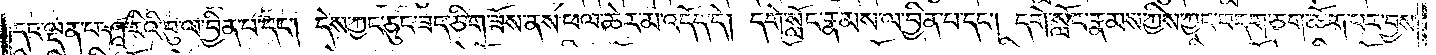དང་ལྡན་པ་ཤཱ་རིའི་བུ་ལ་བྱིན་པ་དང༌། དེས་ཀྱང་ཅུང་ཟད་ཅིག་ཟོས་ནས་ཕལ་ཆེར་མ་འདོད་དེ། དགེ་སློང་རྣམས་ལ་བྱིན་པ་དང༌། དགེ་སློང་རྣམས་ཀྱིས་ཀྱང་བདག་ཅག་ཆོག་པར་བྱས་
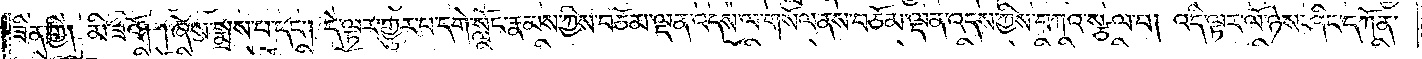ཟིན་གྱི། མི་ཟའོ། །ཞེས་སྨྲས་པ་དང༌། དེ་ལྟར་གྱུར་པ་དགེ་སློང་རྣམས་ཀྱིས་བཅོམ་ལྡན་འདས་ལ་གསོལ་ནས་བཅོམ་ལྡན་འདས་ཀྱིས་བཀའ་སྩལ་པ། འདི་ལྟར་ལོ་ཉེས་ཤིང་དཀོན་
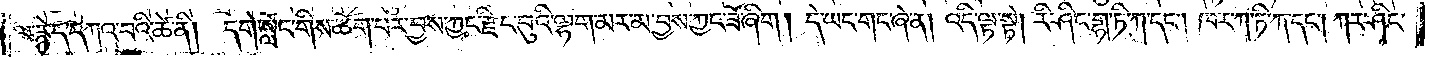ལ་རྙེད་དཀའ་བའི་ཚེ་ནི། དགེ་སློང་གིས་ཆོག་པར་བྱས་ཀྱང་རྫིང་བུའི་ལྷག་མར་མ་བྱས་ཀྱང་ཟོ་ཞིག །དེ་ཡང་གང་ཞེ་ན། འདི་ལྟ་སྟེ། རི་ཤིང་གྷ་ཏི་ཀ་དང༌། ཁར་ཀ་ཏི་ཀ་དང༌། ཀར་ཤིང་
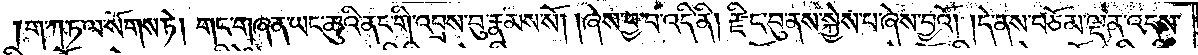ག་ཀ་ཏ་ལ་སོགས་ཏེ། གང་གཞན་ཡང་ཆུའི་ནང་གི་འབྲས་བུ་རྣམས་སོ། །ཞེས་བྱ་བ་འདི་ནི། རྫིང་བུ་ནས་སྐྱེས་པ་ཞེས་བྱའོ། །དེ་ནས་བཅོམ་ལྡན་འདས་
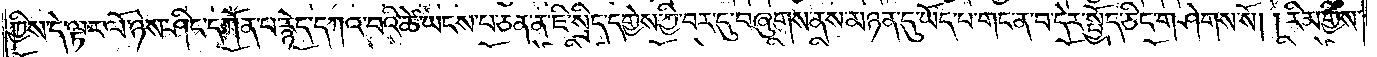ཀྱིས་དེ་ལྟར་ལོ་ཉེས་ཤིང་དཀོན་པ་རྙེད་དཀའ་བའི་ཚེ་ཡངས་པ་ཅན་ན་ཇི་སྲིད་དགྱེས་ཀྱི་བར་དུ་བཞུགས་ནས་མཉན་དུ་ཡོད་པ་གང་ན་བ་དེར་སྤྱོད་ཅིང་གཤེགས་སོ། །རིམ་གྱིས་
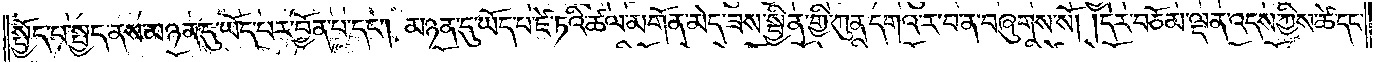སྤྱོད་པ་སྤྱད་ནས་མཉན་དུ་ཡོད་པར་བྱོན་པ་དང༌། མཉན་དུ་ཡོད་པ་ཛེ་ཏའི་ཚལ་མགོན་མེད་ཟས་སྦྱིན་གྱི་ཀུན་དགའ་ར་བ་ན་བཞུགས་སོ། །དེར་བཅོམ་ལྡན་འདས་ཀྱིས་ཚེ་དང་
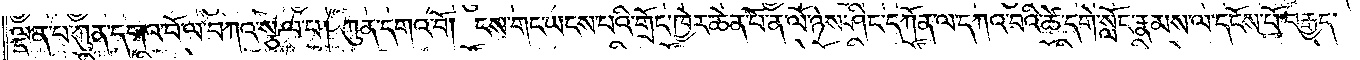ལྡན་པ་ཀུན་དགའ་བོ་ལ་བཀའ་སྩལ་པ། ཀུན་དགའ་བོ། ངས་གང་ཡངས་པའི་གྲོང་ཁྱེར་ཆེན་པོ་ན་ལོ་ཉེས་ཤིང་དཀོན་ལ་དཀའ་བའི་ཚེ་དགེ་སློང་རྣམས་ལ་དངོས་པོ་བརྒྱད་
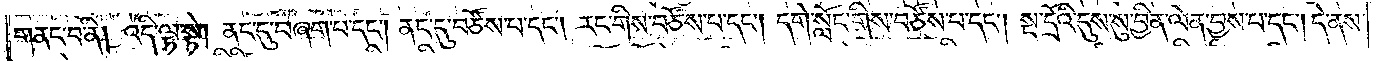གནང་བ་ནི། འདི་ལྟ་སྟེ། ནང་དུ་བཞག་པ་དང༌། ནང་དུ་བཙོས་པ་དང༌། རང་གིས་བཙོས་པ་དང༌། དགེ་སློང་གིས་བཙོས་པ་དང༌། སྔ་དྲོའི་དུས་སུ་བྱིན་ལེན་བྱས་པ་དང༌། དེ་ནས་
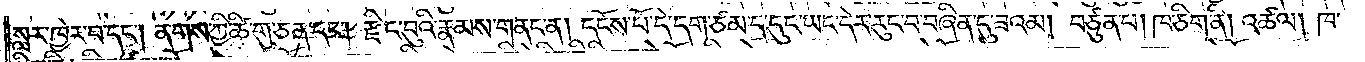སླར་ཁྱེར་བ་དང༌། ནགས་ཀྱི་ཚི་གུ་ཅན་དང༌། རྫིང་བུའི་རྣམས་གནང་ན། དངོས་པོ་དེ་དག་ཙམ་ད་དུང་ཡང་དེར་རུང་བ་བཞིན་དུ་ཟའམ། བཙུན་པ། ཁ་ཅིག་ནི། འཚལ། ཁ་
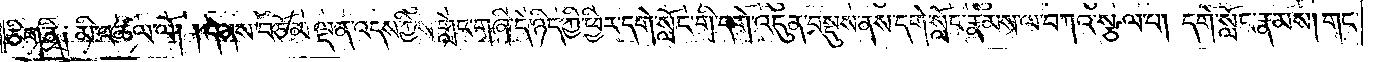ཅིག་ནི༑ མི་འཚལ་ལོ། །དེ་ནས་བཅོམ་ལྡན་འདས་ཀྱིས་གླེང་གཞི་དེ་ཉིད་ཀྱི་ཕྱིར་དགེ་སློང་གི་དགེ་འདུན་བསྡུས་ནས་དགེ་སློང་རྣམས་ལ་བཀའ་སྩལ་པ། དགེ་སློང་རྣམས། གང་
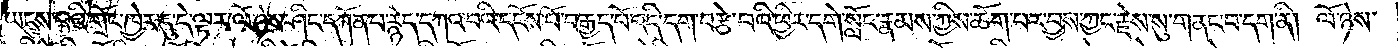ཡངས་པའི་གྲོང་ཁྱེར་དུ་དེ་ལྟར་ལོ་ཉེས་ཤིང་དཀོན་པ་རྙེད་དཀའ་བའི་དངོས་པོ་བརྒྱད་པོ་འདི་དག་བརྩེ་བའི་ཕྱིར་དགེ་སློང་རྣམས་ཀྱིས་ཆོག་པར་བྱས་ཀྱང་རྗེས་སུ་གནང་བ་དག་ནི། ལོ་ཉེས་
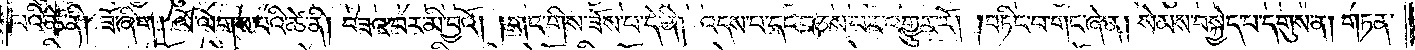པའི་ཚེ་ནི། ཟོ་ཞིག། ལོ་ལེགས་པའི་ཚེ་ནི། བཟའ་བར་མི་བྱའོ། །གང་གིས་ཟོས་པ་དེ་ནི། འདས་པ་དང་བཅས་པར་འགྱུར་རོ། །བཏིང་བ་གང་ཞེ་ན། སེམས་བསྐྱེད་པ་དགུས་ན། གཏན་
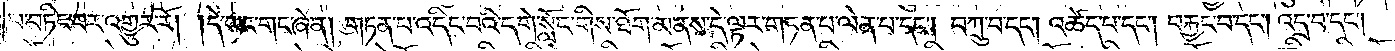པ་བཏིང་བར་འགྱུར་རོ། །དེ་ཡང་གང་ཞེ་ན། གཏན་པ་འདིང་བའི་དགེ་སློང་གིས་ཐོག་མ་ནས་དེ་ལྟར་གཏན་པ་ལེན་པ་དང༌། བཀྲུ་བ་དང༌། འཚེད་པ་དང༌། བརྐྱང་བ་དང༌། འདྲ་བ་དང༌།
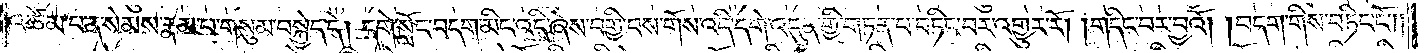འཚེམ་པ་ན་སེམས་རྣམ་པ་གསུམ་བསྐྱེད་དེ། དགེ་སློང་བདག་མིང་འདི་ཞེས་བགྱི་བས་གོས་འདི་དགེ་འདུན་གྱི་གཏན་པ་བཏིང་བར་འགྱུར་རོ། །གདིང་བར་བྱའོ། །བདག་གིས་བཏིང་ངོ༌། །
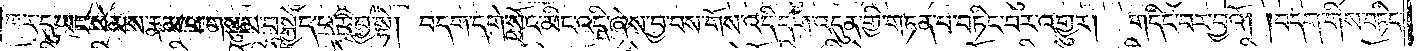བར་དུ་ཡང་སེམས་རྣམ་པ་གསུམ་བསྐྱེད་པར་བྱ་སྟེ། བདག་དགེ་སློང་མིང་འདི་ཞེས་བྱ་བས་གོས་འདི་དགེ་འདུན་གྱི་གཏན་པ་བཏིང་བར་འགྱུར། གདིང་བར་བྱའོ། །བདག་གིས་བཏིང་
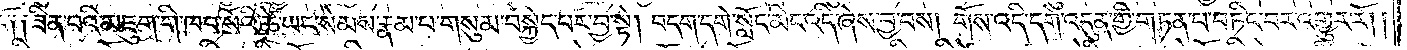ངོ༌༑ ༑ཟིན་པའི་མཇུག་གི་ཁབ་སོའི་ཚེ་ཡང་སེམས་རྣམ་པ་གསུམ་བསྐྱེད་པར་བྱ་སྟེ། བདག་དགེ་སློང་མིང་འདི་ཞེས་བྱ་བས། གོས་འདི་དགེ་འདུན་གྱི་གཏན་པ་བཏིང་བར་འགྱུར་རོ། །
